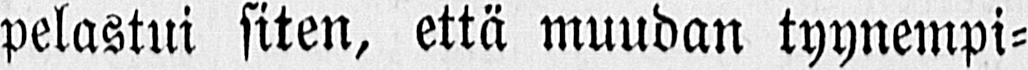pelastin siten, että muudan tyynempi-
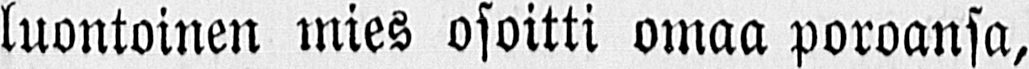luontoinen mies osoitti omaa poroansa,
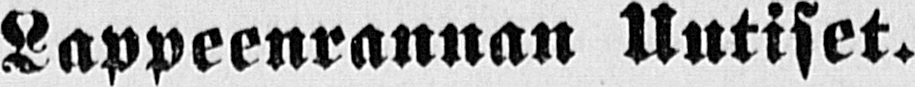Lappeenrannan Uutiset.
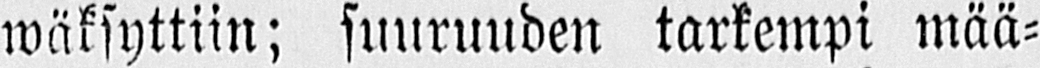wäksyttiin; suuruuden tarkempi mää-
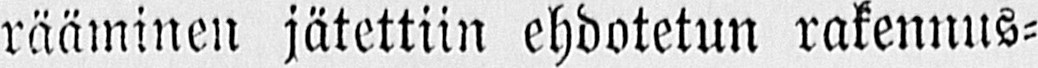rääminen jätettiin ehdotetun rakennus-
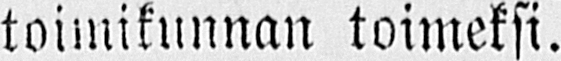toimikunnan toimeksi.
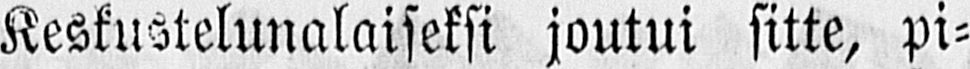Keskustelunalaiseksi joutui sitte, pi-
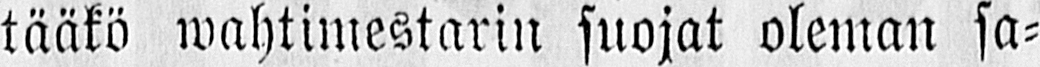tääkö wahtimestarin suojat oleman sa-
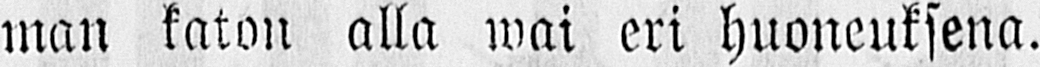man katon alla wai eri huoneuksena.
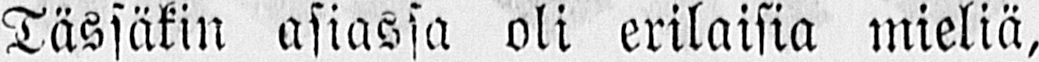Tässäkin asiassa oli erilaisia mieliä,
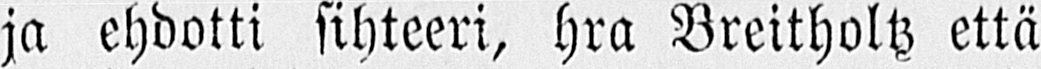ja ehdotti sihteeri, hra Breitholtz että
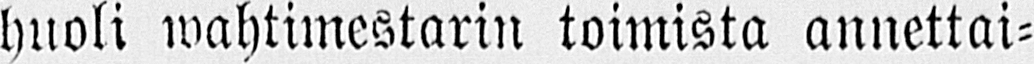huoli wahtimestarin toimista annettai-
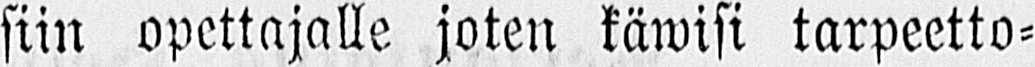siin opettajalle joten käwisi tarpeetto-
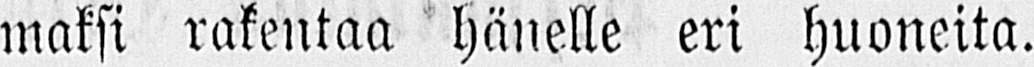maksi rakentaa hänelle eri huoneita.
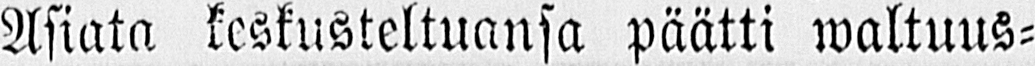Asiata keskusteltuansa päätti waltuus-
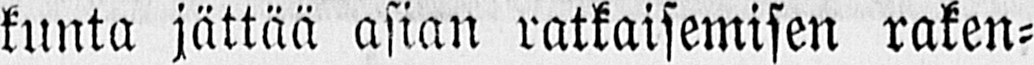kunta jättää asian ratkaisemisen raken-
